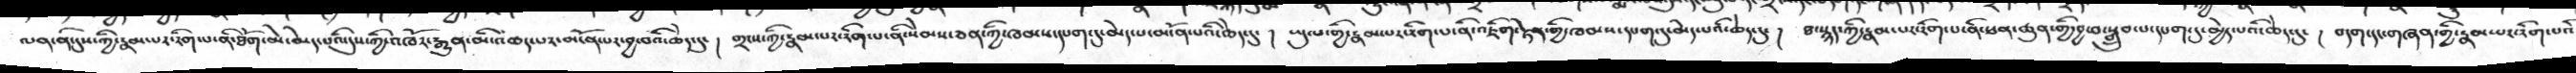ལན་ནི་དུས་ཀྱི་རྣམ་པར་རིག་པ་ནི་ཐོག་མེ་མེད་པའི་དུས་ཀྱི་འཁོར་རྒྱུན་མི་འཆད་པར་མངོན་པར་བྱ་བའི་ཆེད་དུ་།  གྲངས་ཀྱི་རྣམ་པར་རིག་པ་ནི་སེམས་ཅན་ཀྱི་ཁམས་དཔག་དུ་མེད་པ་མངོན་པའི་ཆེད་དུ་།  ཡུལ་གྱི་རྣམ་པར་རིག་པ་ནི་འཇིག་རྟེན་གྱི་ཁམས་དཔག་དུ་མེད་པའི་ཆེད་དུ་།   ཐ་སྙད་ཀྱི་རྣམ་པར་རིག་པ་ནི་ཕན་ཚུན་གྱི་བྱ་བ་སྒྲུབ་པ་དཔག་དུ་མྱེད་པའི་ཆེད་དུ་།  བདག་དང་གཞན་གྱི་རྣམ་པར་རིག་པའི་
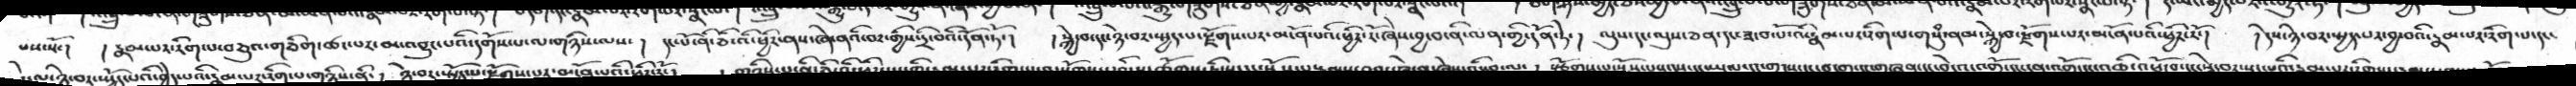པས་སོ་།   །རྣམ་པར་རིག་པ་བཅུའ་གཅིག་ཚང་པར་མ་འབྱུང་པའི་དགོས་པ་ལ་གཉིས་ལས་།   དང་པོ་ནི་ཅི་འི་ཕྱིར་ནས་ཞེ་ནའི་བར་གྱིས་དྲི་བའི་དོན་ཏོ་།   །སྐྱེ་བ་དང་ཉེ་བར་སྤྱད་པ་རྫོགས་པར་མངོན་པའི་ཕྱིར་རོ་ཞེས་བྱ་བ་ནི་ལན་གྱི་དོན་ཏེ་།  ལུས་དང་ལུས་ཅན་དང་ཟ་བ་པོ་འི་རྣམ་པར་རིག་པ་གསུཾ་ནམ་སྐྱེ་བ་རྫོགས་པར་མངོན་པའི་ཕྱིར་རོ་།   །དེས་ཉེ་བར་སྤྱད་པར་བྱ་བའི་རྣམ་པར་རིག་པ་དང་
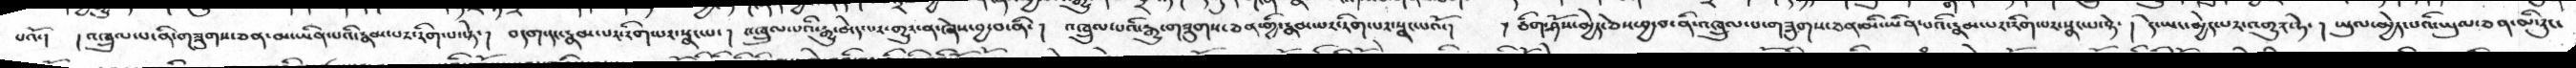པའོ་།   །འཁྲུལ་པ་ནི་གཟུགས་ཅན་མ་ཡིན་པའི་རྣམ་པར་རིག་པ་སྟེ་།   བདག་དང་རྣམ་པར་རིག་པར་སྣང་པ་།   འཁྲུལ་པའི་རྒྱུ་མེད་པར་གྱུར་ན་ཞེས་བྱ་བ་ནི་།  འཁྲུལ་པའི་རྒྱུ་གཟུགས་ཅན་གྱི་རྣམ་པར་རིག་པར་སྣང་པའོ་།   །ཅིག་ཤོས་མྱེད་ཅེས་བྱ་བ་ནི་འཁྲུལ་པ་གཟུགས་ཅན་མི་ཡིན་པའི་རྣམ་པར་རིག་པར་སྣང་པ་སྟེ་།   དེ་ཡང་མྱེད་པར་འགྱུར་ཏེ་།  ཡུལ་མྱེད་པའི་ཡུལ་ཅན་མི་རུང་
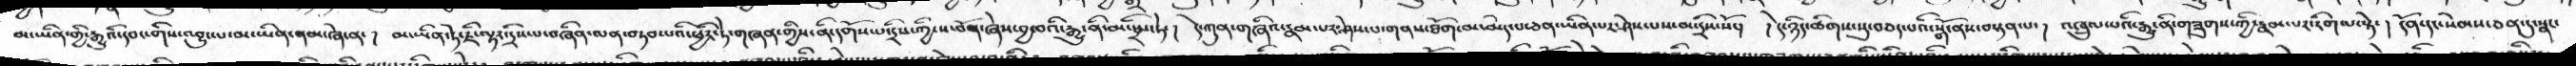མ་ཡིན་གྱི་རྒྱུའི་དབང་གིས་འབྱུང་པ་མ་ཡིན་ནམ་ཞེ་ན་།  མ་ཡིན་ཏེ་ཇི་ལྟར་དྲིས་པ་བཞིན་ལན་བཏབ་པའི་ཕྱིར་ཏེ་གཞན་གྱིས་ནི་དགོས་པ་དྲིས་ཀྱི་ས་བོན་ཞེས་བྱ་བའི་རྒྱུ་ནི་མ་སྦྲིས་ཏེ་།  དེ་ཀུན་གཞིའི་རྣམ་པར་ཤེས་པ་གནས་ཐོག་མ་མེད་པ་ཅན་ཡིན་པར་ཤེས་པས་མ་དྲིས་སོ་།   །དེ་ཉིད་ཚིགས་སུ་བཅད་པའི་སྒོ་ནས་བསྟན་པ་།  འཁྲུལ་པའི་རྒྱུ་ནི་གཟུགས་ཀྱི་རྣམ་པར་རིག་པ་སྟེ་།  དོན་དང་སེམས་ཅན་དུ་སྣང་
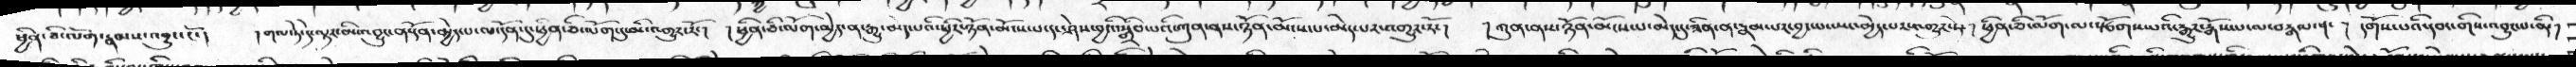ཕྱིན་ཅི་ལོག་རྣམས་འབྱུང་ངོ་།   །གལ་ཏེ་དེ་ལྟར་མི་འབྱུང་ན་དོན་མྱེད་པ་ལ་དོན་དུ་ཕྱིན་ཅི་ལོག་དུ་མི་འགྱུར་རོ་།   །ཕྱི་ཅི་ལོག་མྱེད་ན་རྒྱུ་མེད་པའི་ཕྱིར་ཉོན་མོངས་པ་དང་ཤེས་བྱའི་སྒྲིབ་པའི་ཀུན་ནས་ཉོན་མོངས་པ་མེད་པར་འགྱུར་རོ་།  །ཀུན་ནས་ཉོན་མོངས་པ་མེད་དུ་ཟིན་ན་རྣམ་པར་བྱང་པ་ཡང་མྱེད་པར་འགྱུར་ཏེ་།  ཕྱིན་ཅི་ལོག་ལ་སྩོགས་པའི་རྒྱུར་རྒོས་པ་ལ་བརྒལ་ན་།  །དགོས་པའི་དབང་གིས་འབྱུང་པ་ནི་།
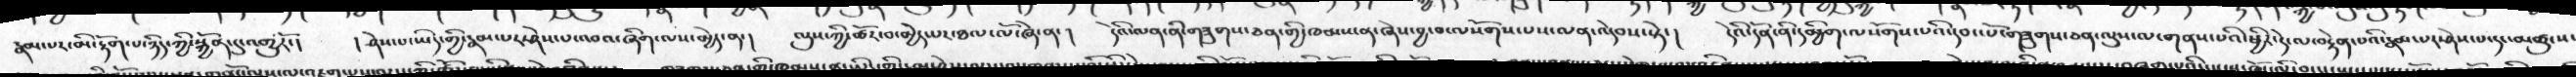རྣམ་པར་མི་རྟོག་པ་ཉིད་ཀྱི་སྐྱོན་དུ་འགྱུརོ་།  །ཤེས་པ་ཡིད་གྱི་རྣམ་པར་ཤེས་པ་འབའ་ཞིག་ལས་མྱེད་ན་།  ལུས་ཀྱི་ཚོར་བ་མྱེད་པར་ཐལ་ལོ་ཞེ་ན་།  དེའི་ལན་ནི་གཟུགས་ཅན་གྱི་ཁམས་ན་ཞེས་བྱ་བ་ལསོགས་པས་ལན་འདེབས་སྟེ་།   དེའི་དོན་ནི་དམྱིག་ལསོགས་པའི་དབང་པོ་གཟུགས་ཅན་ལུས་ལ་གནས་པའི་ཕྱིར་དེ་ལ་བརྟེན་པའི་རྣམ་པར་ཤེས་པ་དང་མཚུངས
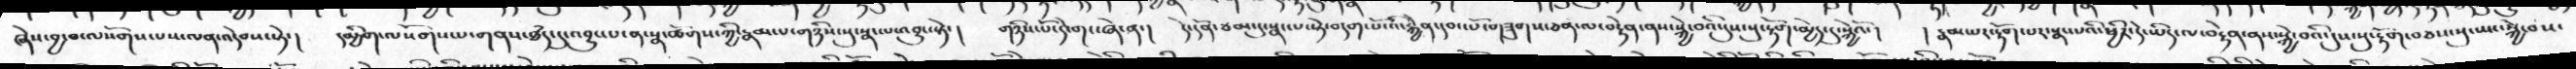ཞེས་བྱ་བ་ལསོགས་པས་ལན་འདེབས་སྟེ་།  དམྱིག་ལསོགས་པ་གནས་ཐཾད་དུ་འབྱུང་པ་ན་སྣ་ཚོགས་ཀྱི་རྣམ་པ་གཉིས་སུ་སྣང་པ་འབྱུང་སྟེ་།  གཉིས་པོ་དེ་གང་ཞེ་ན་།   དེ་དོན་ཙམ་དུ་སྣང་པ་སྟེ་བདག་པོ་འི་རྐྱེན་དབང་པོ་གཟུགས་ཅན་ལ་བརྟེན་ནས་སྐྱེ་བའི་དུས་སུ་རྟོག་མྱེད་དུ་སྐྱེའོ་།  །རྣམ་པར་རྟོག་པར་སྣང་པའི་ཕྱིར་དེ་ཡིད་ལ་བརྟེན་ནས་སྐྱེ་བའི་དུས་སུ་རྟོག་བཅས་སུ་ཡང་སྐྱེ་བས་
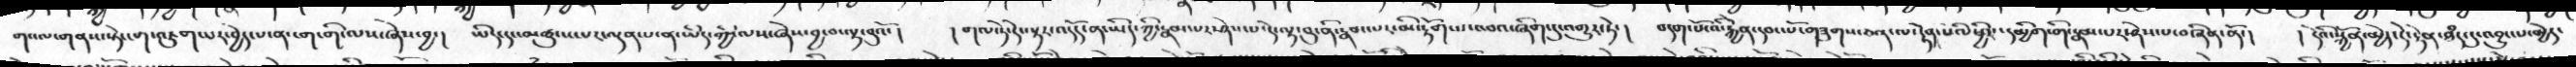གསལ་གནས་སྟེ་ངག་འཇུག་པར་བྱེད་པ་ན་ངག་གི་ལས་ཞེས་བྱ་།  ཡིད་དང་མཚུངས་པར་ལྡན་པ་ན་ཡིད་ཀྱི་ལས་ཞེས་བྱ་བ་ལྟ་བུའོ་།    །གལ་ཏེ་དེ་ལྟར་འདོད་ན་ཡིད་ཀྱི་རྣམ་པར་ཤེས་པ་དེ་ལྟ་བུ་ནི་རྣམ་པར་མི་རྟོག་པ་འབའ་ཞིག་དུ་འགྱུར་ཏེ་།   བདག་པོ་འི་རྐྱེནདབང་པོ་གཟུགས་ཅན་ལ་རྟེན་པའི་ཕྱིར་དམྱིག་གི་རྣམ་པར་ཤེས་པ་བཞིན་ནོ་།   ། དེའི་སྐྱོན་མྱེད་དེ་རྟེན་ཐཾད་དུ་འབྱུང་པ་མྱེད
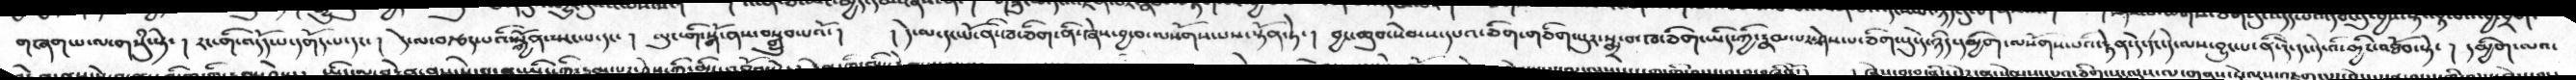གཞག་པ་ལ་གསུཾ་སྟེ་།  རང་གི་འདོད་པ་འགོད་པ་དང་།  དེ་ལ་བརྩད་པའི་སྐྱོན་སྤང་པ་དང་།  ལུང་གི་སྒོ་ནས་བསྒྲུབ་པའོ་།  །དེ་ལ་དང་པོ་ནི་ཁ་ཅིག་ནི་ཞེས་བྱ་བ་ལསོགས་པས་སྟོན་ཏེ་།  བྱང་ཆུབ་སེམས་དཔའ་ཅིག་གཅིག་པུར་སྨྲ་བ་ཁ་ཅིག་ཡིད་ཀྱི་རྣམ་པར་ཤེས་པ་ཅིག་པུ་དེ་ཉིད་དམྱིག་ལསོགས་པའི་རྟེན་དེ་དང་དེ་ལས་བྱུང་པ་ནི་དེ་དང་དེ་འི་ཕྱིར་འཐོབ་སྟེ་།  དམྱིག་ལའ་
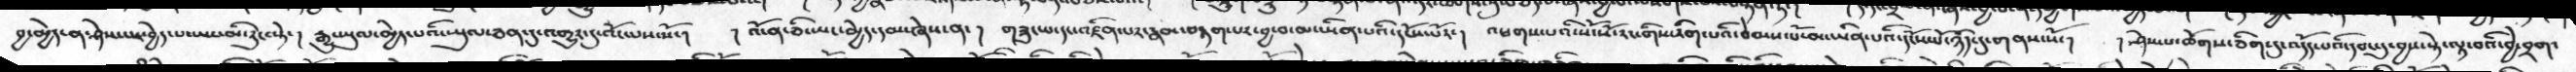བྱ་མྱེད་ན་ཤེས་པར་བྱེད་པ་ཡང་མི་རུང་སྟེ་།   རྒྱུ་ཡུལ་མྱེད་པའི་ཡུལ་ཅན་དུ་འགྱུར་དུ་འོས་པས་སོ་།  ། འོ་ན་ཅི་ཡང་མྱེད་དམ་ཞེས་ན་།  གཟུང་པ་དང་འཛིན་པར་རྣམ་བརྟག་པར་བྱ་བ་མ་ཡིན་པའི་དངོས་པོར་།   འཕགས་པའི་སོ་སོ་རང་གིས་རིག་པའི་བེམས་པོ་མ་ཡིན་པའི་དངོས་པོ་ཉིད་དུ་གནས་སོ་།   ། ཤེས་པ་ཚོགས་ཅིག་དུ་འདོད་པའི་དབང་དུ་བྱས་སྟེ་ལྟ་བའི་བྱེ་བྲག་
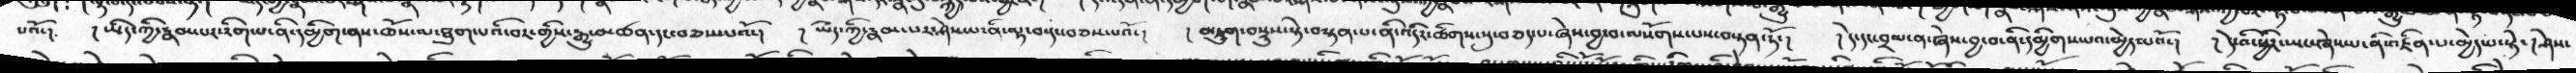པའོ་།   །ཡིད་ཀྱི་རྣམ་པར་རིག་པ་ནི་དམྱིག་ནས་ཆོས་ལ་ཐུག་པའི་བར་གྱིས་རྒྱུ་མཚན་དང་བཅས་པའོ་།   ། ཡིད་ཀྱི་རྣམ་པར་ཤེས་པ་ནི་ལྟ་བ་དང་བཅས་པའོ་།  ། མཇུག་བསྡུས་སྟེ་བསྟན་པ་ནི་འདིར་ཚིགས་སུ་བཅད་པ་ཞེས་བྱ་བ་ལསོགས་པས་བསྟན་ཏོ་།   ། དེ་དང་བྲལ་ན་ཞེས་བྱ་བ་ནི་དམྱིགས་པའ་མྱེད་པའོ་།   །དེའི་ཕྱིར་ཡང་ཞེས་པ་ནི་འཛིན་པ་མྱེད་པ་སྟེ་།  ཤེས་
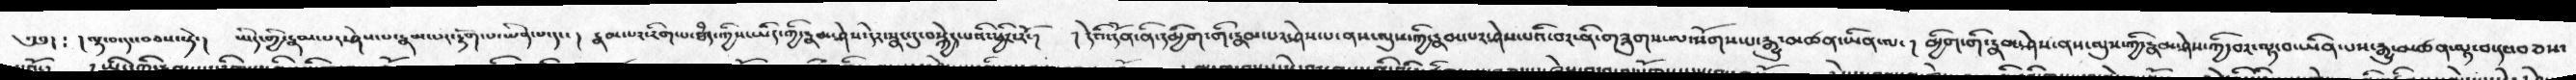༄༅། ༴  །ལྟ་བ་དང་བཅས་སྟེ་།   ཡིད་གྱི་རྣམ་པར་ཤེས་པ་རྣམ་པར་རྟོག་པ་ཡིན་པ་དང་།  རྣམ་པར་རིག་པ་ཐཾད་ཀྱིས་ཡིད་ཀྱི་རྣམ་ཤེས་དེར་སྣང་དུ་བསྐྱེད་པའི་ཕྱིར་རོ་།   །དེའི་དོན་ནི་དམྱིག་གི་རྣམ་པར་ཤེས་པ་ནས་ལུས་ཀྱི་རྣམ་པར་ཤེས་པའི་བར་ནི་གཟུགས་ལ་སོགས་པ་རྒྱུ་མཚན་ཡིན་ལ་།  མྱིག་གི་རྣམ་ཤེས་ནས་ལུས་ཀྱི་རྣམ་ཤེས་ཀྱི་བར་ལྟ་བ་ཡིན་པས་རྒྱུ་མཚན་ལྟ་བ་དང་བཅས་
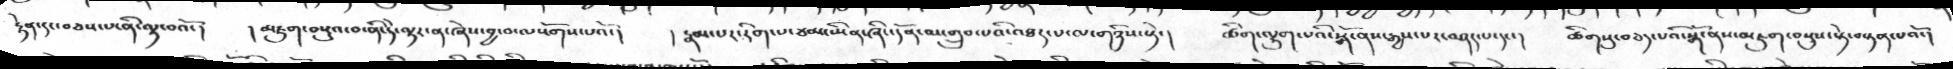རྟེན་དང་བཅས་པ་ནི་ལྟ་བའོ་།  །འཇུག་བསྡུའ་བ་ནི་དེ་ལྟར་ན་ཞེས་བྱ་བ་ལསོགས་པའོ་།   །རྣམ་པར་རིག་པ་ཙམ་ཡིན་ཞིང་དོན་མ་གྲུབ་པའི་འཐད་པ་ལ་གཉིས་སྟེ་།   ཚིག་ལྷུག་པའི་སྒོ་ནས་རྒྱས་པར་བཤད་པ་དང་།   ཚིགསུ་བཅད་པའི་སྒོ་ནས་མཇུག་བསྡུས་སྟེ་བསྟན་པའོ་།
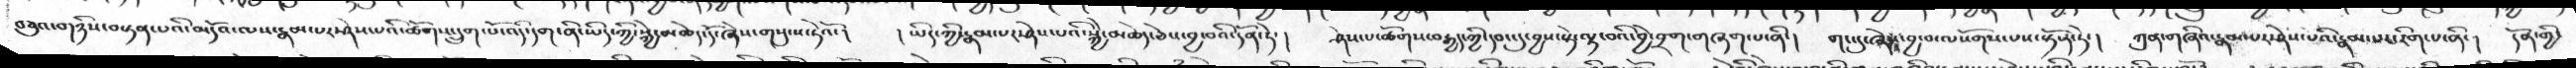བཅུའ་གཉིས་བསྟན་པའི་མདོའ་ལས་རྣམ་པར་ཤེས་པའི་ཚོགས་དྲུག་པོ་འདི་དག་ནི་ཡིད་ཀྱི་སྐྱེ་མཆེད་དོ་ཞེས་གསུངས་ཏེའོ་།   །ཡིད་ཀྱི་རྣམ་པར་ཤེས་པའི་སྐྱེ་མཆེད་ཅེས་བྱ་བའི་དོན་ཏེ་།  ཤེས་པ་ཚོགས་བརྒྱད་ཀྱི་དབང་དུ་བྱས་སྟེ་ལྟ་བའི་བྱེ་བྲག་གཞག་པ་ནི་།  གང་དུ་ཞེས་བྱ་བ་ལསོགས་པས་སྟོན་ཏེ་།  ཀུན་གཞིའ་རྣམ་པར་ཤེས་པའི་རྣམ་པར་རིག་པ་ནི་།  དོན་གྱི་
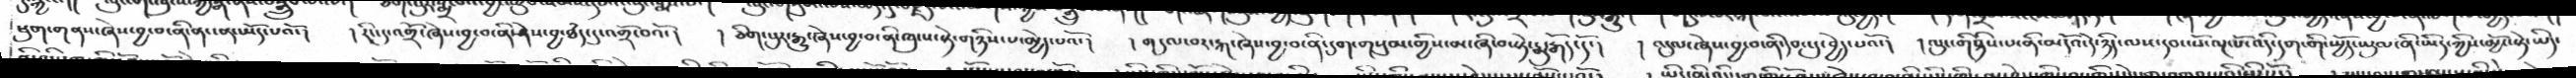ཕུག་གནས་ཞེས་བྱ་བ་ནི་ནང་ན་ཡོད་པའོ་།  །རིང་དུ་འགྲོ་ཞེས་བྱ་བ་ནི་ཤེས་བྱ་ཐདཾ་དུ་འགྲོ་བའོ་།   །ཅིག་པུར་རྒྱུ་ཞེས་བྱ་བ་ནི་ཁུངས་སྟེ་གཉིས་པ་མྱེད་པའོ་།   །གདུལ་བར་རྐ་ཞེས་བྱ་བ་ནི་དུག་གསུམ་གྱིས་མ་ཞི་བ་སྟེ་རྨུ་རྒོད་དོ་།   །འདུལ་ཞེས་བྱ་བ་ནི་དབང་དུ་བྱེད་པའོ་།  །ལུང་གིཉིས་པ་ནི་མདོའ་དེ་ཉིད་ལས་དབང་པོ་ལྔ་པོ་འདི་དག་གི་སྤྱོད་ཡུལ་ནི་ཡིད་ཀྱིས་མྱོང་སྟེ་ཡིད་
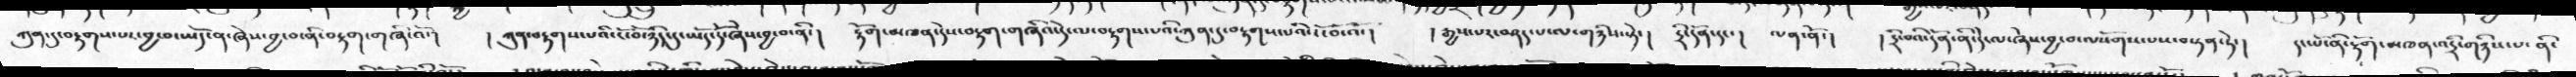ཀུན་དུ་བརྟགས་པར་བྱ་བ་ཡོད་ན་ཞེས་བྱ་བ་ནི་བརྟག་གཞི་འོ་།    །ཀུན་བརྟགས་པའི་ངོ་བོ་ཉིད་དུ་ཡོད་དོ་ཞེས་བྱ་བ་ནི་།   རྟོག་མཁན་དེས་བརྟག་གཞིའི་དེ་ལ་བརྟགས་པའི་ཀུན་དུ་བརྟགས་པའི་ངོ་བོ་འོ་།   ། རྒྱས་པར་བཤད་པ་ལ་གཉིས་སྟེ་།   དྲི་དོན་དང་།   ལན་ནོ་།    །དྲི་བའི་དོན་ནི་དེ་ལ་ཞེས་བྱ་བ་ལསོགས་པས་བསྟན་ཏེ་།    དང་པོ་ནི་རྟོག་མཁན་འདྲི་གཉིས་པ་ནི་
